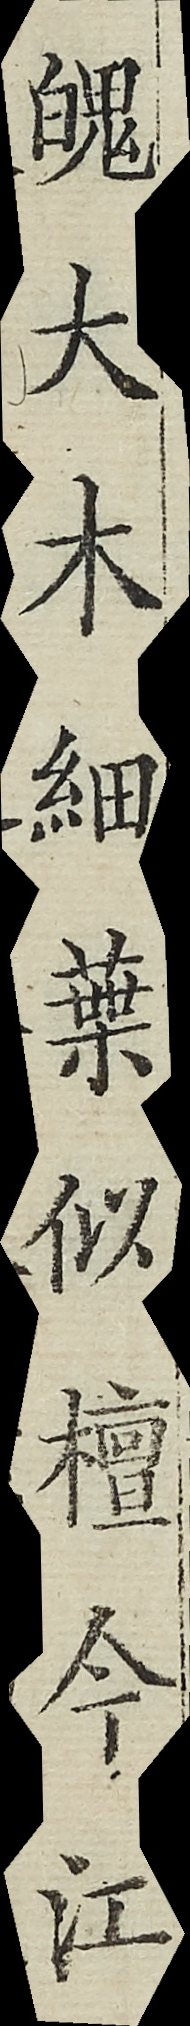魄大木細葉似檀今江
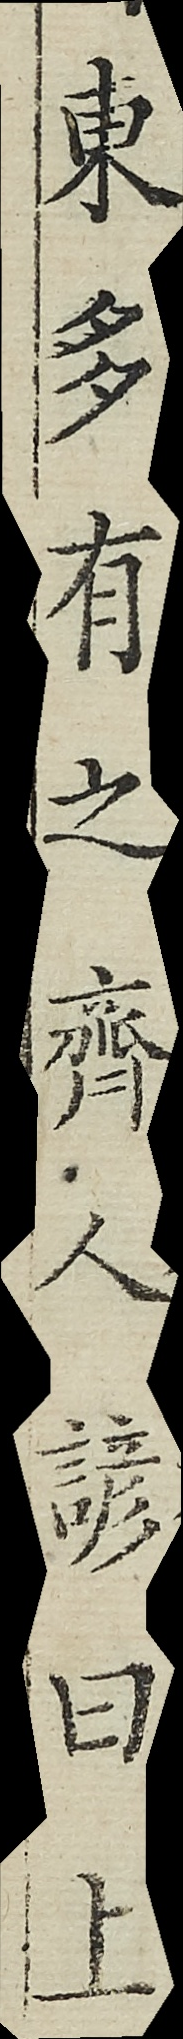東多有之齊人諺曰上
